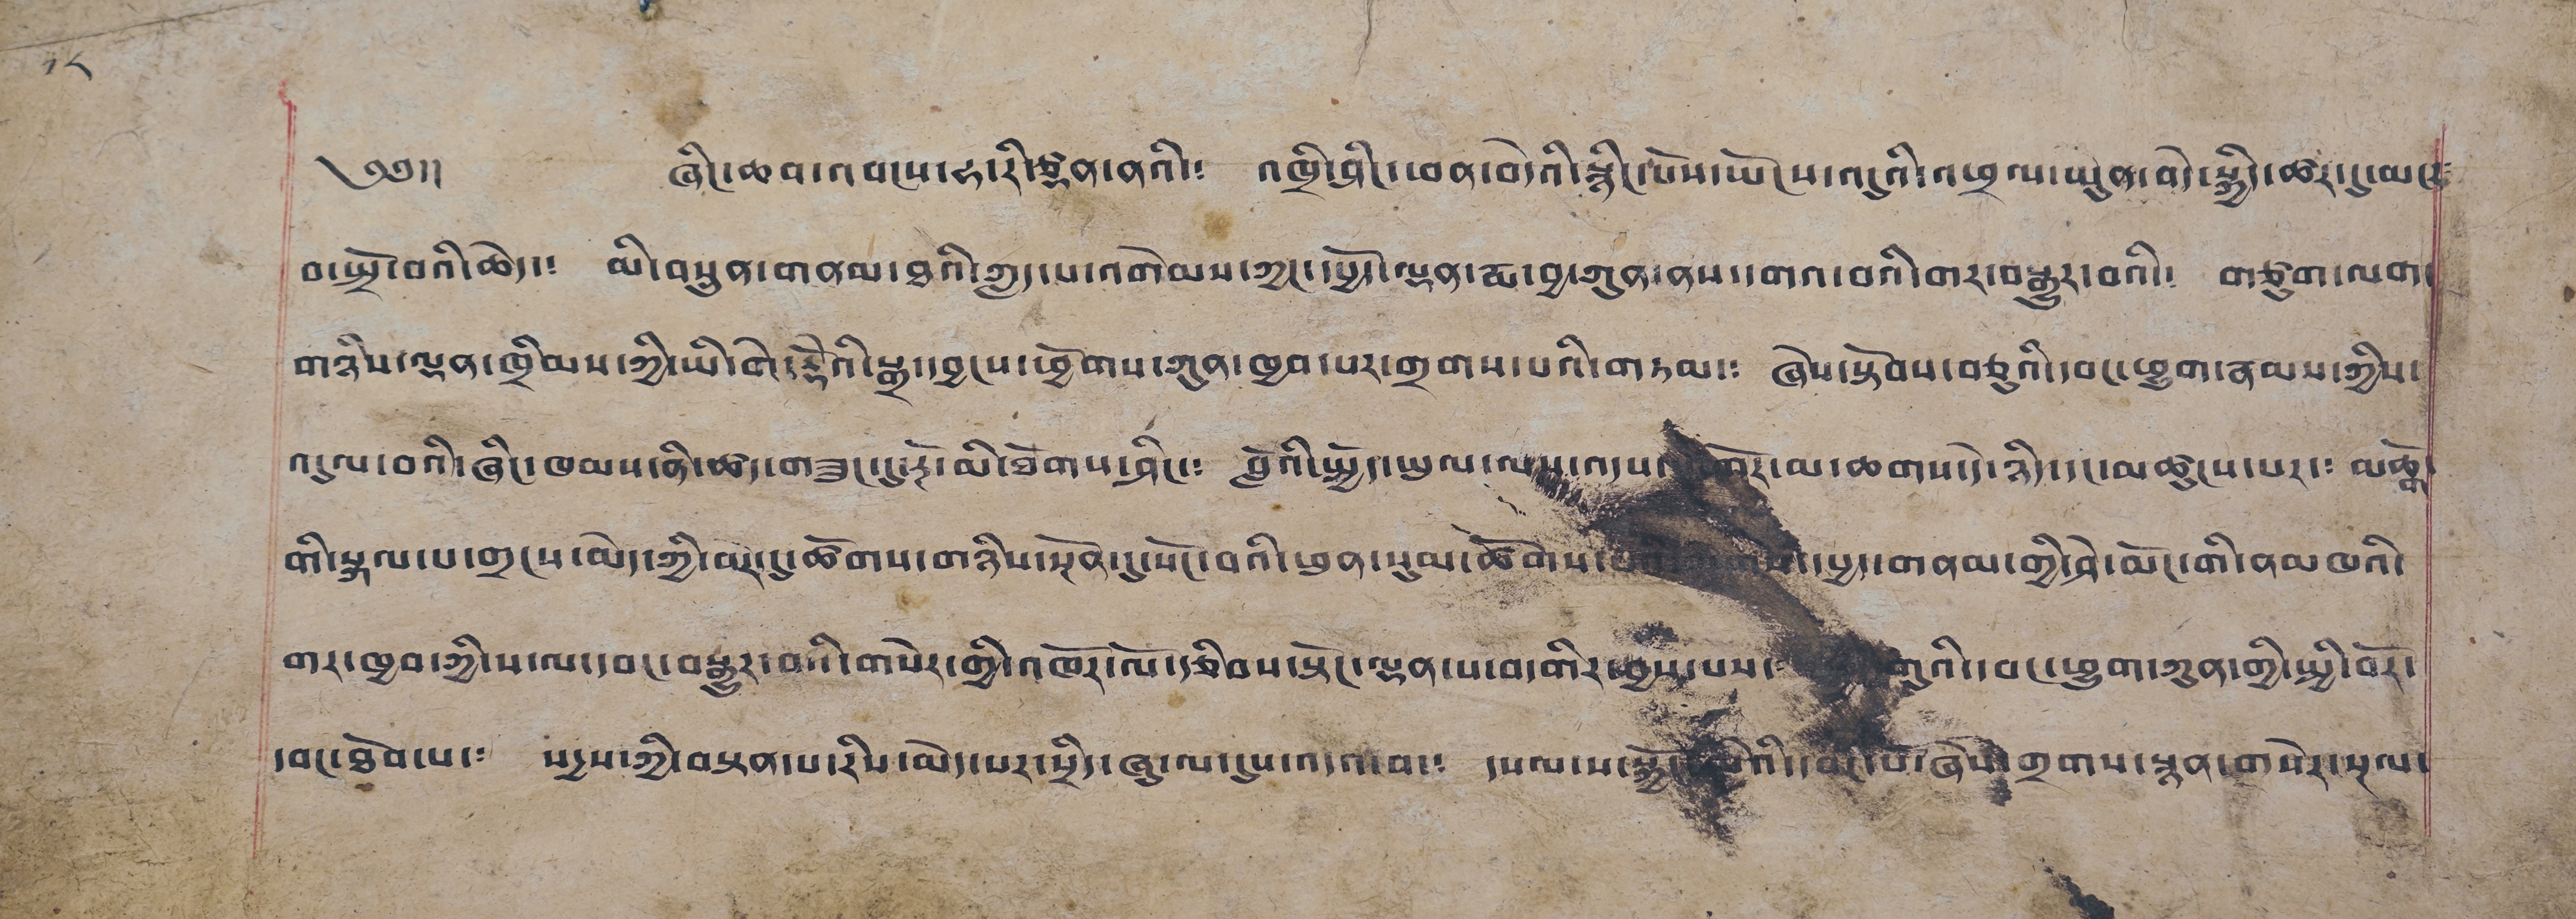༡༨
༄༅།། ཞིང་ཆབ་འབངས་ཧ་རི་ཙདན་ནའི་༴ འཁྲི་ཤིང་ཕན་བདེའི་སྙིང་སོས་ཡོངས་འདུའི་འཕྲལ་ཡུན་བདེ་སྐྱིད་ཚར་དུ་མངར༴
བ་སྤྲོ་བའི་ཆེད་༴ མི་བསྲུན་གནམ་ཐའི་ཀླད་པ་འགེམས་ཀྱང་དཔྱོད་ལྡན་རྨ་བྱ་ཀུན་ནས་དགའ་བའི་གར་བསྒྱུར་བའི་༴ གཙུག་ལག་
གཉིས་ལྡན་ཁྲིམས་ཀྱི་ཡི་གེ་རྡོའི་སྒྲ་བྱངས་ཕྱོགས་ཀུན་ཁྱབ་པར་གྲགས་པའི་གཏམ་༴ ཞེས་སྟོབས་བཅུའི་དབང་ཕྱུག་རྣམས་ཀྱིས་
འདུལ་བའི་ཞིང་ཁམས་ནི་ཚད་གཟུང་དུ་རྔོ་མི་ཐོགས་ཤིང་༴ བློའི་སྤྱོད་ཡུལ་ལས་འདས་ཤོར་མ་ཆགས་དེ་ཉིད་དང་མཚུངས་པར་༴ མཆོག་
གི་སྐལ་པ་གྲངས་མེད་ཀྱི་བར་དུ་ཚོགས་གཉིས་སྔོན་དུ་སོང་བའི་ཕུན་སུམ་ཚོགས་྾྾྾་དཔྱད་གནམ་གྱི་ཤེ་མོང་གི་ནམཁའི་
གར་ཁྱབ་ཀྱི་ས་ལ་དབང་བསྒྱུར་བའི་གསེར་གྱི་འཁོར་ལོ་རྩིབས་སྟོང་ལྡན་པ་བདགིར་བྱས་པས་ xxx གའི་དབང་ཕྱུག་ཀུན་གྱི་སྤྱི་བོར་
དབང་ཐོབ་པ་༴ སདྱས་ཀྱི་བསྟན་པ་རིས་མེད་པར་སྲིད་ཞུ་ལ་དུས་འདའ་བ་༴ དཔལ་པ་སྐྱོང་xxxའི་དབང་པོ་ཞེས་གྲགས་སྙན་གསེར་སྔལ་
